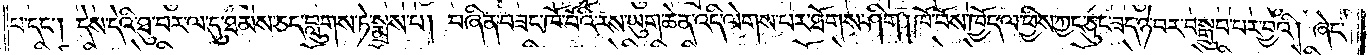པ་དང༌། དེས་དེའི་ཐུ་བར་ལ་དུ་ཐམས་ཅད་བླུགས་ཏེ་སྨྲས་པ། བཞིན་བཟང་ཁོ་བོའི་རས་ཡུག་ཆེན་འདི་ལེགས་པར་ཐོགས་ཤིག །ཁོ་བོས་ཁྱོད་ལ་ཕྱིས་ཀྱང་ཅུང་ཟད་ཉེ་བར་བསྒྲུབ་པར་བྱའི། ཞེང་
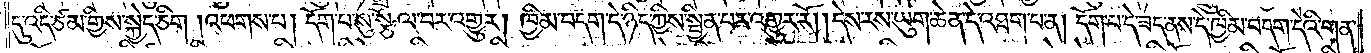དུ་འདི་ཙམ་གྱིས་སྐྱེད་ཅིག །འཕགས་པ། དོག་པ་སུ་སྩོལ་བར་འགྱུར། ཁྱིམ་བདག་དེ་ཉིད་ཀྱིས་སྦྱིན་པར་འགྱུར་རོ། །དེས་རས་ཡུག་ཆེན་དེ་འཐག་པ་ན། དོག་པ་དེ་ཟད་ནས་དེ་ཁྱིམ་བདག་དེའི་གན་
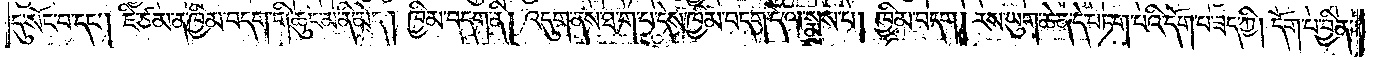དུ་སོང་བ་དང༌། ཇི་ཙམ་ན་ཁྱིམ་བདག་གི་ཆུང་མ་ནི་མེད། ཁྱིམ་བདག་ནི། འདུག་ནས་ཐ་ག་པ་དེས་ཁྱིམ་བདག་དེ་ལ་སྨྲས་པ། ཁྱིམ་བདག། རས་ཡུག་ཆེན་དེ་བཏག་པའི་དོག་པ་ཟད་ཀྱི། དོག་པ་བྱིན་
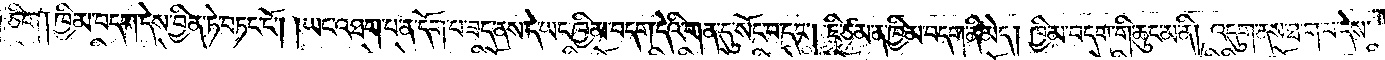ཅིག །ཁྱིམ་བདག་དེས་བྱིན་ཏེ་བཏང་ངོ༌། །ཡང་འཐག་པ་ན་དོག་པ་ཟད་ནས་དེ་ཡང་ཁྱིམ་བདག་དེའི་གན་དུ་སོང་བ་དང༌། ཇི་ཙམ་ན་ཁྱིམ་བདག་ནི་མེད། ཁྱིམ་བདག་གི་ཆུང་མ་ནི། འདུག་ནས་ཐ་ག་པ་དེས་
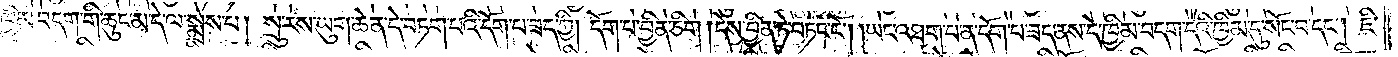ཁྱིམ་བདག་གི་ཆུང་མ་དེ་ལ་སྨྲས་པ། སྲུ་རས་ཡུག་ཆེན་དེ་བཏག་པའི་དོག་པ་ཟད་ཀྱི། དོག་པ་བྱིན་ཅིག །དེས་བྱིན་ཏེ་བཏང་ངོ༌། །ཡང་འཐག་པ་ན་དོག་པ་ཟད་ནས་དེ་ཁྱིམ་བདག་དེའི་ཁྱིམ་དུ་སོང་བ་དང༌། ཇི་
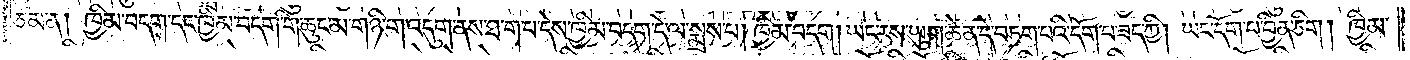ཙམ་ན། ཁྱིམ་བདག་དང་ཁྱིམ་བདག་གི་ཆུང་མ་གཉི་ག་འདུག་ནས་ཐ་ག་པ་དེས་ཁྱིམ་བདག་དེ་ལ་སྨྲས་པ། ཁྱིམ་བདག། ཡང་རས་ཡུག་ཆེན་དེ་བཏག་པའི་དོག་པ་ཟད་ཀྱི། ཡང་དོག་པ་བྱིན་ཅིག །ཁྱིམ་
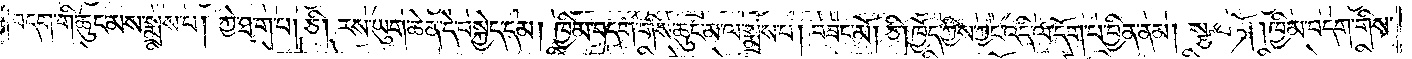བདག་གི་ཆུང་མས་སྨྲས་པ། ཀྱེ་ཐ་ག་པ། ཅི། རས་ཡུག་ཆེན་དེ་བསྐྱེད་དམ། ཁྱིམ་བདག་གིས་ཆུང་མ་ལ་སྨྲས་པ། བཟང་མོ། ཅི། ཁྱོད་ཀྱིས་ཀྱང་འདི་ལ་དོག་པ་བྱིན་ནམ། སྩལ་ཏོ། །ཁྱིམ་བདག་གིས་
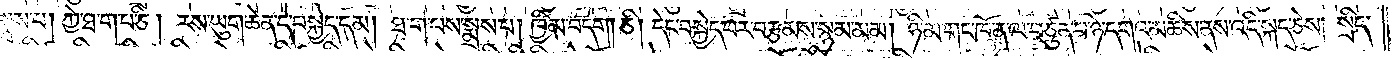སྨྲས་པ། ཀྱེ་ཐ་ག་པ་ཅི། རས་ཡུག་ཆེན་དེ་བསྐྱེད་དམ། ཐ་ག་པས་སྨྲས་པ། ཁྱིམ་བདག། ཅི། དེང་བསྐྱེད་པར་བརྩམས་སྙམ་མམ། ཉི་མ་གང་ཁོ་ན་ལ་བཙུན་པ་ཉེ་དགའ་མཆིས་ནས་འདི་སྐད་ཅེས། སྲིད་
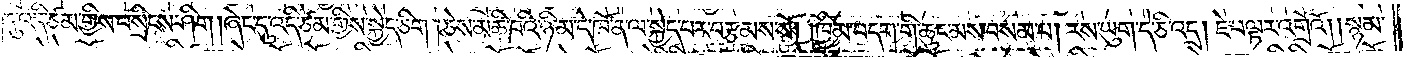དུ་འདི་ཙམ་གྱིས་བསྲིངས་ཤིག །ཞེང་དུ་འདི་ཙམ་གྱིས་སྐྱེད་ཅིག །ཅེས་མཆི་བའི་ཉི་མ་དེ་ཁོ་ན་ལ་སྐྱེད་པར་བརྩམས་སོ། །ཁྱིམ་བདག་གི་ཆུང་མས་བསམ་པ། རས་ཡུག་དེ་ཅི་འདྲ། ཇེ་བལྟར་འགྲོའོ། །སྙམ་
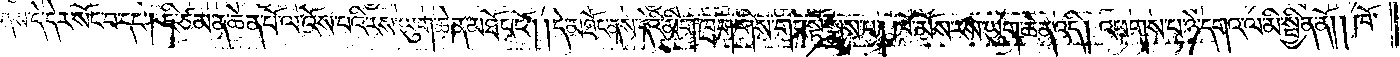ནས་དེ་དེར་སོང་བ་དང༌། ཇི་ཙམ་ན་ཆེན་པོ་ལ་འོས་པའི་རས་ཡུག་ཆེན་མཐོང་ངོ༌། །དེ་མཐོང་ནས་དེའི་མིག་ཁྲག་གིས་གང་སྟེ་སྨྲས་པ། ཁོ་མོས་རས་ཡུག་ཆེན་འདི། འཕགས་པ་ཉེ་དགའ་ལ་མི་སྦྱིན་ནོ། །ཁོ་
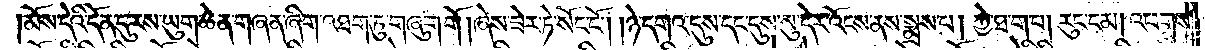མོས་དེའི་དོན་དུ་རས་ཡུག་ཆེན་གཞན་ཞིག་འཐག་ཏུ་གཞུག་གོ །ཞེས་ཟེར་ཏེ་སོང་ངོ༌། །ཉེ་དགའ་དུས་དང་དུས་སུ་དེར་འོངས་ནས་སྨྲས་པ། ཀྱེ་ཐ་ག་པ། རུང་ངམ། འཕགས་
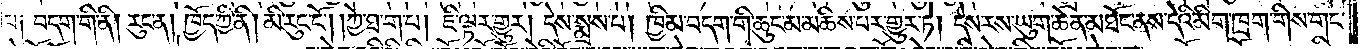པ༑ བདག་གི་ནི། རུང་ན། ཁྱོད་ཀྱི་ནི། མི་རུང་ངོ༌། །ཀྱེ་ཐ་ག་པ། ཇི་ལྟར་གྱུར། དེས་སྨྲས་པ། ཁྱིམ་བདག་གི་ཆུང་མ་མཆིས་པར་གྱུར་ཏེ། དེས་རས་ཡུག་ཆེན་མཐོང་ནས་དེའི་མིག་ཁྲག་གིས་གང་
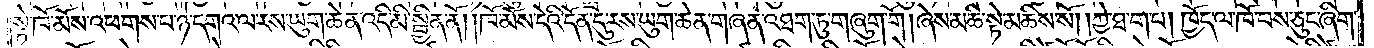སྟེ་ཁོ་མོས་འཕགས་པ་ཉེ་དགའ་ལ་རས་ཡུག་ཆེན་འདི་མི་སྦྱིན་ནོ། །ཁོ་མོས་དེའི་དོན་དུ་རས་ཡུག་ཆེན་གཞན་འཐག་ཏུ་གཞུག་གོ །ཞེས་མཆི་སྟེ་མཆིས་སོ། །ཀྱེ་ཐ་ག་པ། ཁྱོད་ལ་ཁོ་བས་ཅུང་ཞིག་
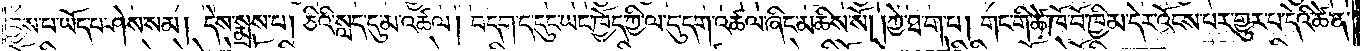བྱས་པ་ཡོད་པ་ཤེས་སམ། དེས་སྨྲས་པ། ཅིའི་སླད་དུ་མ་འཚལ། བདག་ད་དུང་ཡང་ཁྱོད་ཀྱི་ལ་དུ་དག་འཚལ་ཞིང་མཆིས་སོ། །ཀྱེ་ཐ་ག་པ། གང་གི་ཚེ་ཁོ་བོ་ཁྱིམ་དེར་འོངས་པར་གྱུར་པ་དེའི་ཚེ་ན་
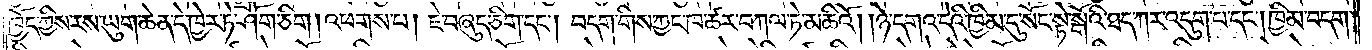ཁྱོད་ཀྱིས་རས་ཡུག་ཆེན་དེ་ཁྱེར་ཏེ་ཤོག་ཅིག །འཕགས་པ། ཇེ་བཞུད་ཅིག་དང༌། བདག་གིས་ཀྱང་ཁ་ཚར་བཀལ་ཏེ་མཆིའོ། །ཉེ་དགའ་དེའི་ཁྱིམ་དུ་སོང་སྟེ་སྒོའི་ཐད་ཀར་འདུག་པ་དང༌། ཁྱིམ་བདག་
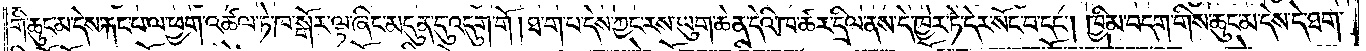གི་ཆུང་མ་དེས་རྐང་པ་ལ་ཕྱག་འཚལ་ཏེ་ཁ་སྒོར་ལྟ་ཞིང་མདུན་དུ་འདུག་གོ །ཐ་ག་པ་དེས་ཀྱང་རས་ཡུག་ཆེན་དེའི་ཁ་ཚར་དྲིལ་ནས་དེ་ཁྱེར་ཏེ་དེར་སོང་བ་དང༌། ཁྱིམ་བདག་གིས་ཆུང་མ་དེས་དེ་ཐག་
